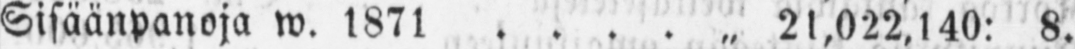Sisäänpanoja w. 1871 „ 21,022,140: 8.
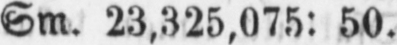Sm. 23,325,075: 50.
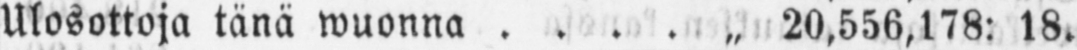Ulosottoja tänä wuonna „ 20,556,178: 18.
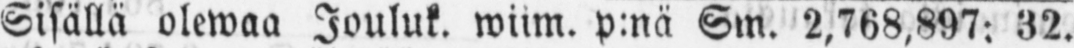Sisällä olewaa Jouluk. wiim. p:nä Sm. 2,768,897: 32.
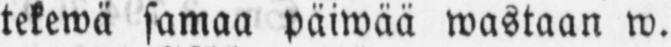tekewä samaa päiwää wastaan w.
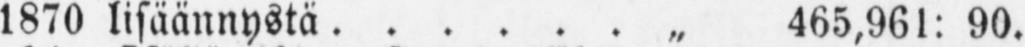1870 lisäännystä „ 465,961: 90.
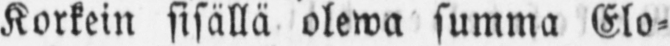Korkein sisällä olewa summa Elo-
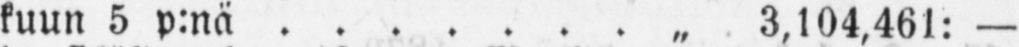kuun 5 p:nä „ 3,104,461: —
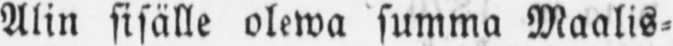Alin sisälle olewa summa Maalis-
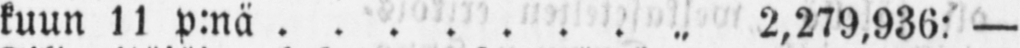kuun 11 p:nä „ 2,279.930: —
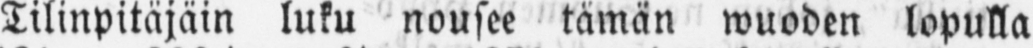Tilinpitäjäin luku nousee tämän wuoden lopulla
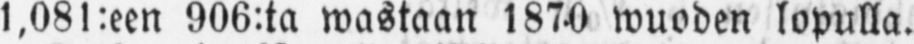1,081 :een 906:ta wastaan 1870 wuoden lopulla.
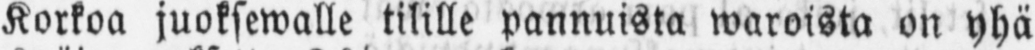Korkoa juoksewalle tilille pannuista waroista on yhä
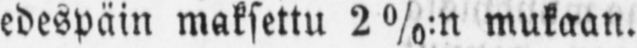edespäin maksettu 2%:n mukaan.
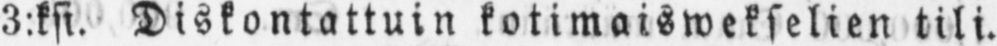3:ksi. Diskontattuin kotimaiswekselien tili.
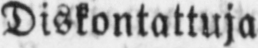Diskontattuja
